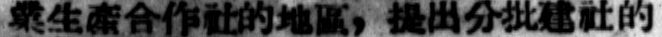業生產合作社的地區，提出分批建社的
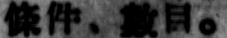條件、數目。
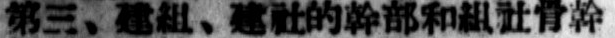第三、建組、建社的幹部和組社骨幹
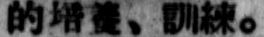的培養、訓練。
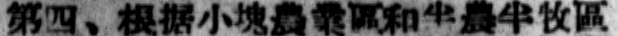第四、根據小塊農業區和半農半牧區
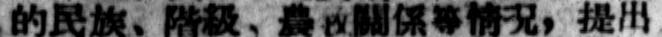的民族、階級、農牧關係等情況，提出
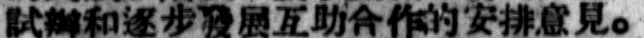試辦和逐步發展互助合作的安排意見。
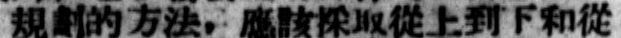規劃的方法，應該採取從上到下和從
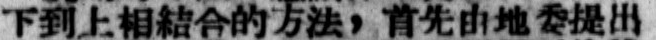下到上相結合的方法，首先由地委提出
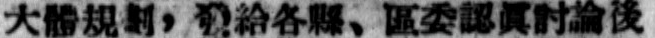大體規劃，發給各縣、區委認眞討論後
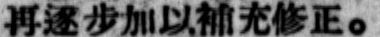再逐步加以補充修正。
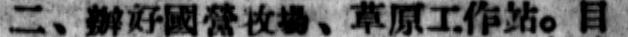二、辦好國營牧場、草原工作站。目
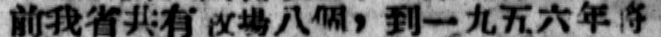前我省共有牧場八個，到一九五六年將
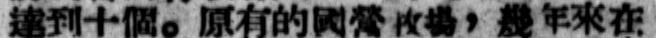達到十個。原有的國營牧場，幾年來在
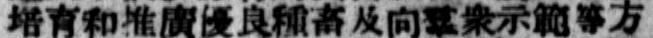培育和推廣優良種畜及向羣衆示範等方
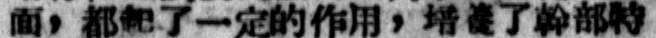面，都起了一定的作用，培養了幹部特
